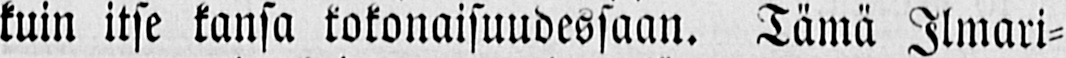kuin itse kansa kokonaisuudessaan. Tämä Ilmari-
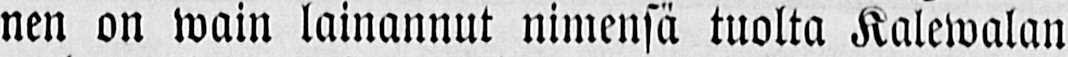nen on wain lainannut nimensä tuolta Kalewalan
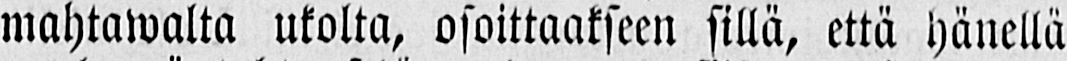mahtawalta ukolta, osoittaakseen sillä, että hänellä
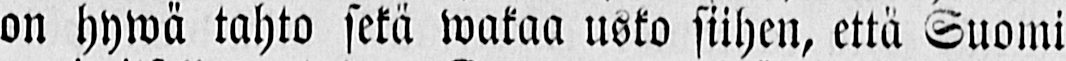on hywä tahto sekä wakaa usko siihen, että Suomi
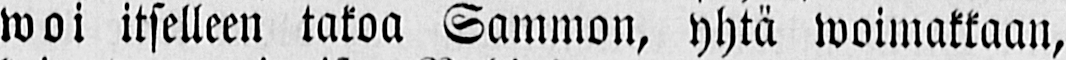woi itselleen takoa Sammon, yhtä woimakkaan,
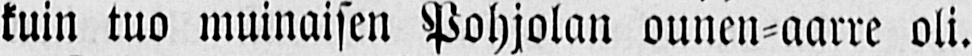kuin tuo muinaisen Pohjolan ounen-aarre oli.
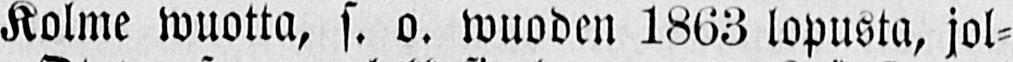Kolme wuotta, s. o. wuoden 1863 lopusta, jol-
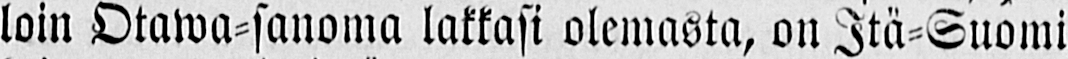loin Otawa-sanoma lakkasi olemasta, on Itä-Suomi
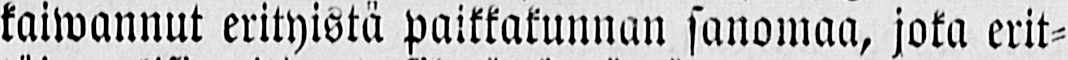kaiwannut erityistä paikkakunnan sanomaa, joka erit-
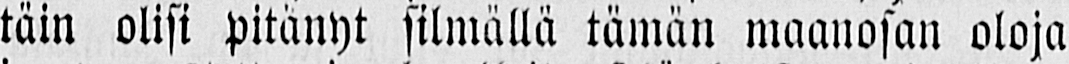täin olisi pitänyt silmällä tämän maanosan oloja
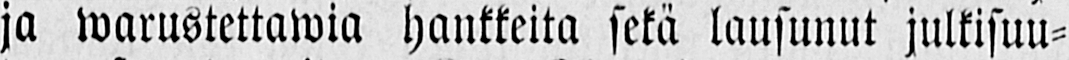ja warustettawia hankkeita sekä lausunut julkisuu-
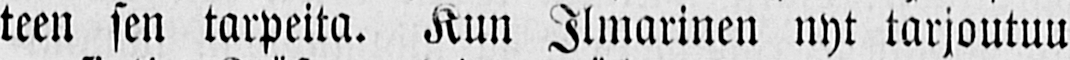teen sen tarpeita. Kun Ilmarinen nyt tarjoutuu
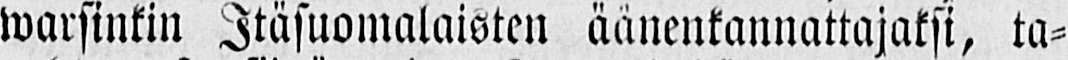warsinkin Itäsuomalaisten äänenkannattajaksi, ta-
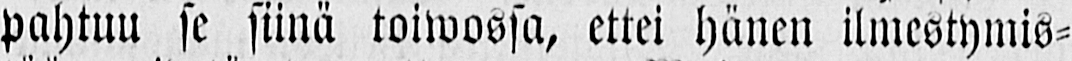pahtuu se siinä toiwosa, ettei hänen ilmestymis-
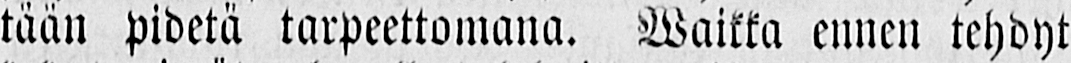tään pidetä tarpeettomana. Waikka ennen tehdyt
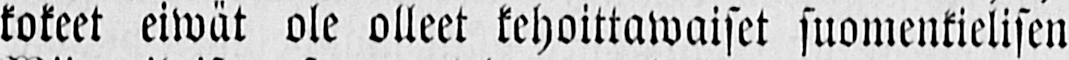kokeet eiwät ole olleet kehoittawaiset suomenkielisen
